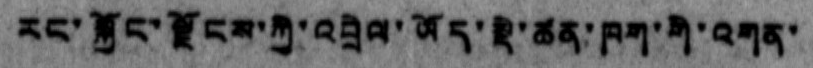རང་སྐྱོང་ལྗོངས་ཀྱི་འབྲེལ་ཡོད་སྡེ་ཚན་ཁག་གི་འགན་
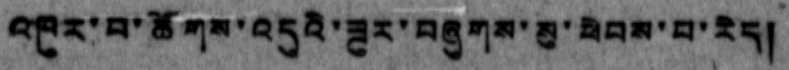འཁུར་བ་ཚོགས་འདུའི་ཟུར་བཞུགས་སུ་ཕེབས་པ་རེད།
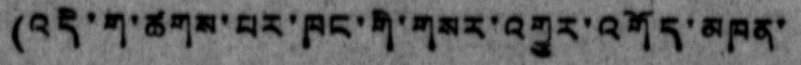(འདི་ག་ཚགས་པར་ཁང་གི་གསར་འགྱུར་འགོད་མཁན་
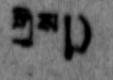གྱིས།)
